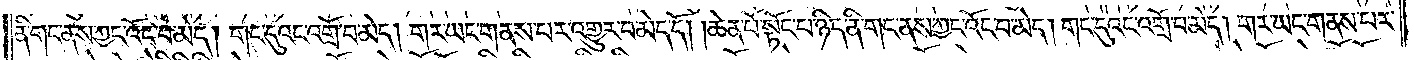ནི་གང་ནས་ཀྱང་འོང་བ་མེད། གང་དུའང་འགྲོ་བ་མེད། གར་ཡང་གནས་པར་འགྱུར་བ་མེད་དོ། །ཆེན་པོ་སྟོང་པ་ཉིད་ནི་གང་ནས་ཀྱང་འོང་པ་མེད། གང་དུའང་འགྲོ་བ་མེད། གར་ཡང་གནས་པར་
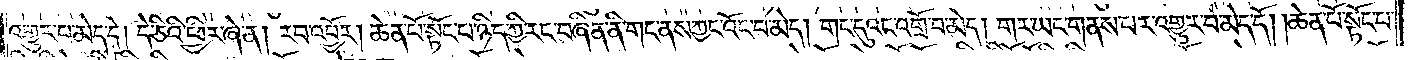འགྱུར་བ་མེད་དེ། དེ་ཅིའི་ཕྱིར་ཞེ་ན། རབ་འབྱོར་ཆེན་པོ་སྟོང་པ་ཉིད་ཀྱི་རང་བཞིན་ནི་གང་ནས་ཀྱང་འོང་བ་མེད། གང་དུའང་འགྲོ་བ་མེད། གར་ཡང་གནས་པར་འགྱུར་བ་མེད་དོ། །ཆེན་པོ་སྟོང་པ་
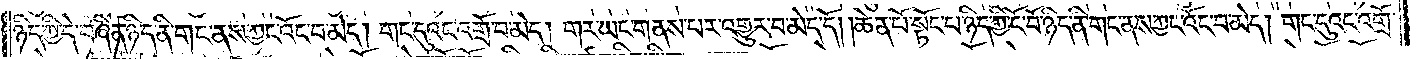ཉིད་ཀྱི་དེ་བཞིན་ཉིད་ནི་གང་ནས་ཀྱང་འོང་བ་མེད། གང་དུའང་འགྲོ་བ་མེད། གར་ཡང་གནས་པར་འགྱུར་བ་མེད་དོ། །ཆེན་པོ་སྟོང་པ་ཉིད་ཀྱི་ངོ་བོ་ཉིད་ནི་གང་ནས་ཀྱང་འོང་བ་མེད། གང་དུའང་འགྲོ་
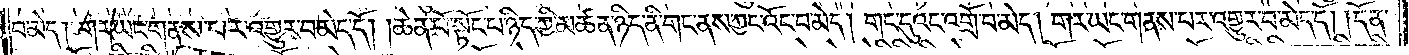བ་མེད། གར་ཡང་གནས་པར་འགྱུར་བ་མེད་དོ། །ཆེན་པོ་སྟོང་པ་ཉིད་ཀྱི་མཚན་ཉིད་ནི་གང་ནས་ཀྱང་འོང་བ་མེད། གང་དུའང་འགྲོ་བ་མེད། གར་ཡང་གནས་པར་འགྱུར་བ་མེད་དོ། །དོན་
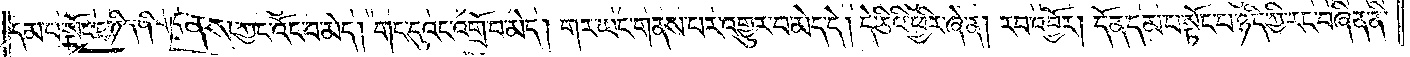དམ་པ་སྟོང་པ་ཉིད་ནི་གང་ནས་ཀྱང་འོང་བ་མེད། གང་དུའང་འགྲོ་བ་མེད། གར་ཡང་གནས་པར་འགྱུར་བ་མེད་དེ། དེ་ཅིའི་ཕྱིར་ཞེ་ན། རབ་འབྱོར། དོན་དམ་པ་སྟོང་པ་ཉིད་ཀྱི་རང་བཞིན་ནི་
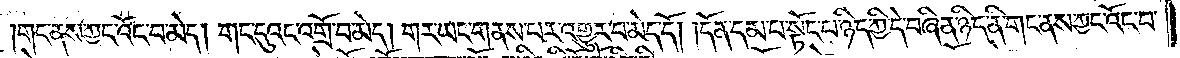གང་ནས་ཀྱང་འོང་བ་མེད། གང་དུའང་འགྲོ་བ་མེད། གར་ཡང་གནས་པར་འགྱུར་བ་མེད་དོ། །དོན་དམ་པ་སྟོང་པ་ཉིད་ཀྱི་དེ་བཞིན་ཉིད་ནི་གང་ནས་ཀྱང་འོང་བ་
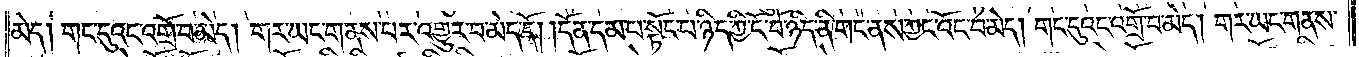མེད། གང་དུའང་འགྲོ་བ་མེད། གར་ཡང་གནས་པར་འགྱུར་བ་མེད་དོ། །དོན་དམ་པ་སྟོང་པ་ཉིད་ཀྱི་ངོ་བོ་ཉིད་ནི་གང་ནས་ཀྱང་འོང་བ་མེད། གང་དུའང་འགྲོ་བ་མེད། གར་ཡང་གནས་
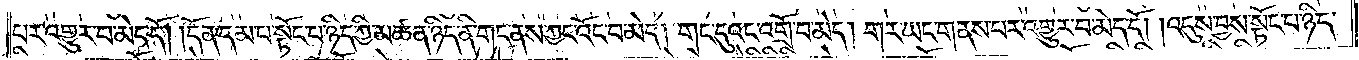པར་འགྱུར་བ་མེད་དོ། །དོན་དམ་པ་སྟོང་པ་ཉིད་ཀྱི་མཚན་ཉིད་ནི་གང་ནས་ཀྱང་འོང་བ་མེད། གང་དུའང་འགྲོ་བ་མེད། གར་ཡང་གནས་པར་འགྱུར་བ་མེད་དོ། །འདུས་བྱས་སྟོང་པ་ཉིད་
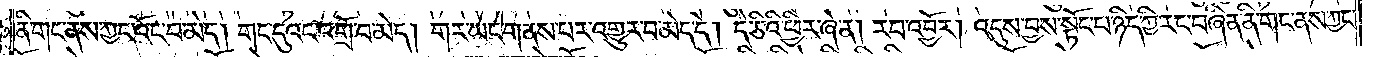ནི་གང་ནས་ཀྱང་འོང་བ་མེད། གང་དུའང་འགྲོ་བ་མེད། གར་ཡང་གནས་པར་འགྱུར་བ་མེད་དེ། དེ་ཅིའི་ཕྱིར་ཞེ་ན། རབ་འབྱོར། འདུས་བྱས་སྟོང་པ་ཉིད་ཀྱི་རང་བཞིན་ནི་གང་ནས་ཀྱང་
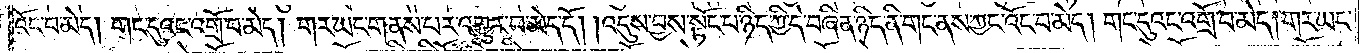འོང་བ་མེད། གང་དུའང་འགྲོ་བ་མེད། གར་ཡང་གནས་པར་འགྱུར་བ་མེད་དོ། །འདུས་བྱས་སྟོང་པ་ཉིད་ཀྱི་དེ་བཞིན་ཉིད་ནི་གང་ནས་ཀྱང་འོང་བ་མེད། གང་དུའང་འགྲོ་བ་མེད། གར་ཡང་
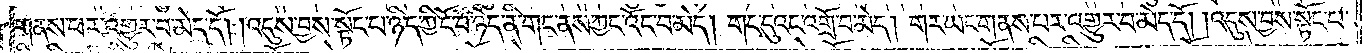གནས་པར་འགྱུར་པ་མེད་དོ། །འདུས་བྱས་སྟོང་པ་ཉིད་ཀྱི་ངོ་བོ་ཉིད་ནི་གང་ནས་ཀྱང་འོང་བ་མེད། གང་དུའང་འགྲོ་བ་མེད། གར་ཡང་གནས་པར་འགྱུར་བ་མེད་དོ། །འདུས་བྱས་སྟོང་པ་
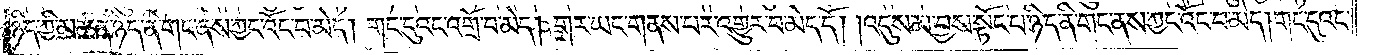ཉིད་ཀྱི་མཚན་ཉིད་ནི་གང་ནས་ཀྱང་འོང་བ་མེད། གང་དུའང་འགྲོ་བ་མེད། གར་ཡང་གནས་པར་འགྱུར་བ་མེད་དོ། །འདུས་མ་བྱས་སྟོང་པ་ཉིད་ནི་གང་ནས་ཀྱང་འོང་བ་མེད། གང་དུའང་
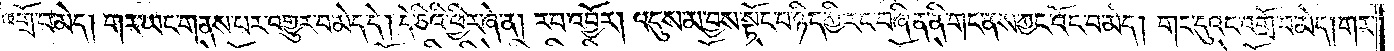འགྲོ་བ་མེད། གར་ཡང་གནས་པར་འགྱུར་བ་མེད་དེ། དེ་ཅིའི་ཕྱིར་ཞེ་ན། རབ་འབྱོར། འདུས་མ་བྱས་སྟོང་པ་ཉིད་ཀྱི་རང་བཞིན་ནི་གང་ནས་ཀྱང་འོང་བ་མེད། གང་དུའང་འགྲོ་བ་མེད། གར་
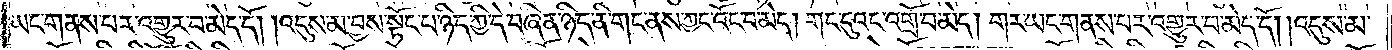ཡང་གནས་པར་འགྱུར་བ་མེད་དོ། །འདུས་མ་བྱས་སྟོང་པ་ཉིད་ཀྱི་དེ་བཞིན་ཉིད་ནི་གང་ནས་ཀྱང་འོང་བ་མེད། གང་དུའང་འགྲོ་བ་མེད། གར་ཡང་གནས་པར་འགྱུར་བ་མེད་དོ། །འདུས་མ་
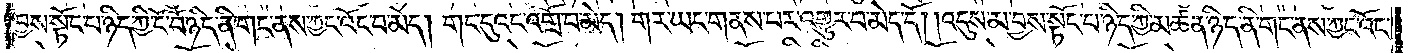བྱས་སྟོང་པ་ཉིད་ཀྱི་ངོ་བོ་ཉིད་ནི་གང་ནས་ཀྱང་འོང་བ་མེད། གང་དུའང་འགྲོ་བ་མེད། གར་ཡང་གནས་པར་འགྱུར་བ་མེད་དོ། །འདུས་མ་བྱས་སྟོང་པ་ཉིད་ཀྱི་མཚན་ཉིད་ནི་གང་ནས་ཀྱང་འོང་
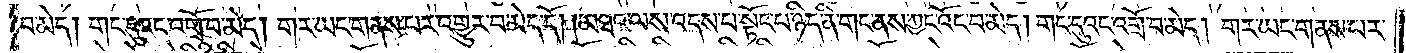བ་མེད། གང་དུའང་འགྲོ་བ་མེད། གར་ཡང་གནས་པར་འགྱུར་བ་མེད་དོ། །མཐའ་ལས་འདས་པ་སྟོང་པ་ཉིད་ནི་གང་ནས་ཀྱང་འོང་བ་མེད། གང་དུའང་འགྲོ་བ་མེད། གར་ཡང་གནས་པར་
